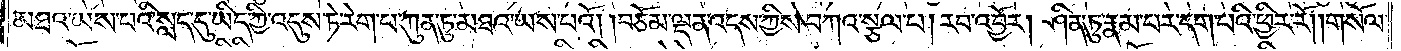མཐའ་ཡས་པའི་སླད་དུ་ཡིད་ཀྱི་འདུས་ཏེ་རེག་པ་ཀུན་ཏུ་མཐའ་ཡས་པའོ། །བཅོམ་ལྡན་འདས་ཀྱིས་བཀའ་སྩལ་པ། རབ་འབྱོར། ཤིན་ཏུ་རྣམ་པར་དག་པའི་ཕྱིར་རོ། །གསོལ་
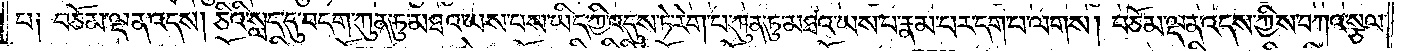པ༑ བཅོམ་ལྡན་འདས། ཅིའི་སླད་དུ་བདག་ཀུན་ཏུ་མཐའ་ཡས་པས་ཡིད་ཀྱི་འདུས་ཏེ་རེག་པ་ཀུན་ཏུ་མཐའ་ཡས་པ་རྣམ་པར་དག་པ་ལགས། བཅོམ་ལྡན་འདས་ཀྱིས་བཀའ་སྩལ་
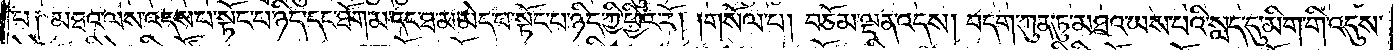པ༑ མཐའ་ལས་འདས་པ་སྟོང་པ་ཉིད་དང་ཐོག་མ་དང་ཐ་མ་མེད་པ་སྟོང་པ་ཉིད་ཀྱི་ཕྱིར་རོ། །གསོལ་པ། བཅོམ་ལྡན་འདས། བདག་ཀུན་ཏུ་མཐའ་ཡས་པའི་སླད་དུ་མིག་གི་འདུས་
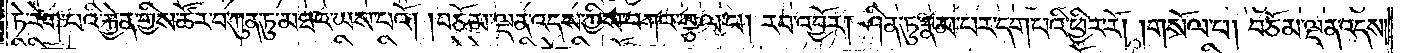ཏེ་རེག་པའི་རྐྱེན་གྱིས་ཚོར་བ་ཀུན་ཏུ་མཐའ་ཡས་པའོ། །བཅོམ་ལྡན་འདས་ཀྱིས་བཀའ་སྩལ་པ། རབ་འབྱོར། ཤིན་ཏུ་རྣམ་པར་དག་པའི་ཕྱིར་རོ། །གསོལ་པ། བཅོམ་ལྡན་འདས།
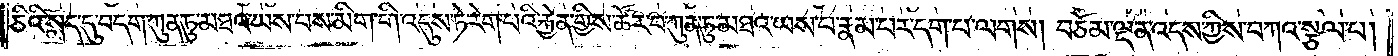ཅིའི་སླད་དུ་བདག་ཀུན་ཏུ་མཐའ་ཡས་པས་མིག་གི་འདུས་ཏེ་རེག་པའི་རྐྱེན་གྱིས་ཚོར་བ་ཀུན་ཏུ་མཐའ་ཡས་པ་རྣམ་པར་དག་པ་ལགས། བཅོམ་ལྡན་འདས་ཀྱིས་བཀའ་སྩལ་པ།
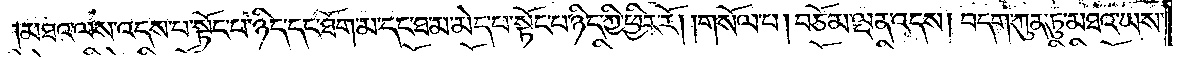མཐའ་ལས་འདས་པ་སྟོང་པ་ཉིད་དང་ཐོག་མ་དང་ཐ་མ་མེད་པ་སྟོང་པ་ཉིད་ཀྱི་ཕྱིར་རོ། །གསོལ་པ། བཅོམ་ལྡན་འདས། བདག་ཀུན་ཏུ་མཐའ་ཡས་
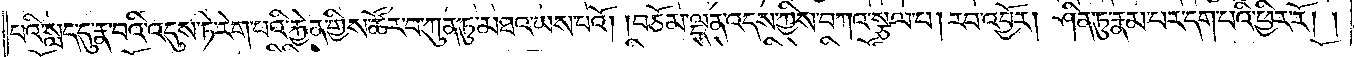པའི་སླད་དུ་རྣ་བའི་འདུས་ཏེ་རེག་པའི་རྐྱེན་གྱིས་ཚོར་བ་ཀུན་ཏུ་མཐའ་ཡས་པའོ། །བཅོམ་ལྡན་འདས་ཀྱིས་བཀའ་སྩལ་པ། རབ་འབྱོར། ཤིན་ཏུ་རྣམ་པར་དག་པའི་ཕྱིར་རོ། །
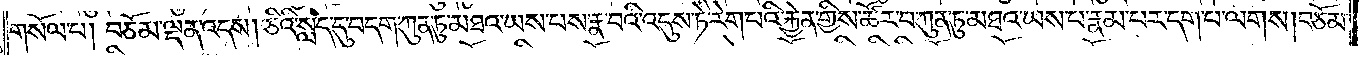གསོལ་པ། བཅོམ་ལྡན་འདས། ཅིའི་སླད་དུ་བདག་ཀུན་ཏུ་མཐའ་ཡས་པ་རྣ་བའི་འདུས་ཏེ་རེག་པའི་རྐྱེན་གྱིས་ཚོར་བ་ཀུན་ཏུ་མཐའ་ཡས་པ་རྣམ་པར་དག་པ་ལགས། བཅོམ་
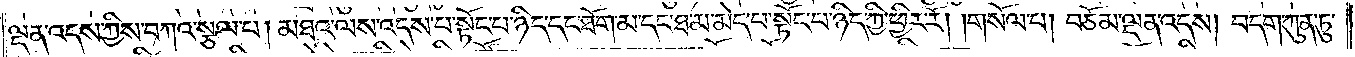ལྡན་འདས་ཀྱིས་བཀའ་སྩལ་པ། མཐའ་ལས་འདས་པ་སྟོང་པ་ཉིད་དང་ཐོག་མ་དང་ཐ་མ་མེད་པ་སྟོང་པ་ཉིད་ཀྱི་ཕྱིར་རོ། །གསོལ་པ། བཅོམ་ལྡན་འདས། བདག་ཀུན་ཏུ་
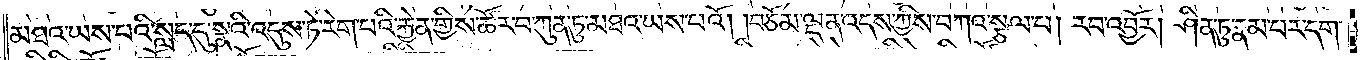མཐའ་ཡས་པའི་སླད་དུ་སྣའི་འདུས་ཏེ་རེག་པའི་རྐྱེན་གྱིས་ཚོར་བ་ཀུན་ཏུ་མཐའ་ཡས་པའོ། །བཅོམ་ལྡན་འདས་ཀྱིས་བཀའ་སྩལ་པ། རབ་འབྱོར། ཤིན་ཏུ་རྣམ་པར་དག་
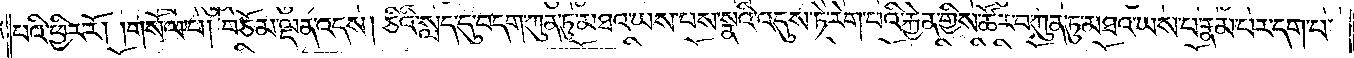པའི་ཕྱིར་རོ། །གསོལ་པ། བཅོམ་ལྡན་འདས། ཅིའི་སླད་དུ་བདག་ཀུན་ཏུ་མཐའ་ཡས་པས་སྣའི་འདུས་ཏེ་རེག་པའི་རྐྱེན་གྱིས་ཚོར་བ་ཀུན་ཏུ་མཐའ་ཡས་པ་རྣམ་པར་དག་པ་
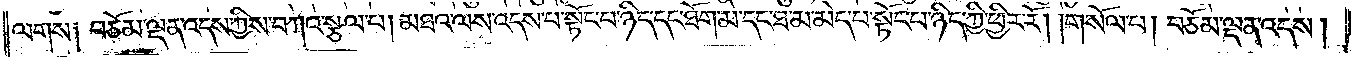ལགས༑ བཅོམ་ལྡན་འདས་ཀྱིས་བཀའ་སྩལ་པ། མཐའ་ལས་འདས་པ་སྟོང་པ་ཉིད་དང་ཐོག་མ་དང་ཐ་མ་མེད་པ་སྟོང་པ་ཉིད་ཀྱི་ཕྱིར་རོ། །གསོལ་པ། བཅོམ་ལྡན་འདས།
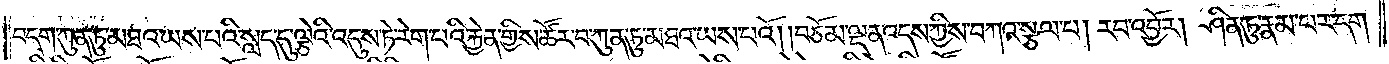བདག་ཀུན་ཏུ་མཐའ་ཡས་པའི་སླད་དུ་ལྕེའི་འདུས་ཏེ་རེག་པའི་རྐྱེན་གྱིས་ཚོར་བ་ཀུན་ཏུ་མཐའ་ཡས་པའོ། །བཅོམ་ལྡན་འདས་ཀྱིས་བཀའ་སྩལ་པ། རབ་འབྱོར། ཤིན་ཏུ་རྣམ་པར་དག་
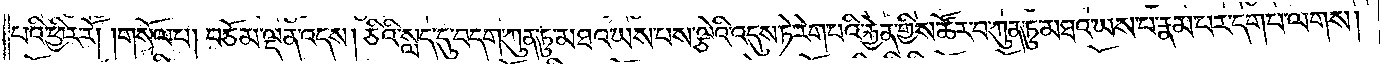པའི་ཕྱིར་རོ། །གསོལ་པ། བཅོམ་ལྡན་འདས། ཅིའི་སླད་དུ་བདག་ཀུན་ཏུ་མཐའ་ཡས་པས་ལྕེའི་འདུས་ཏེ་རེག་པའི་རྐྱེན་གྱིས་ཚོར་བ་ཀུན་ཏུ་མཐའ་ཡས་པ་རྣམ་པར་དག་པ་ལགས།
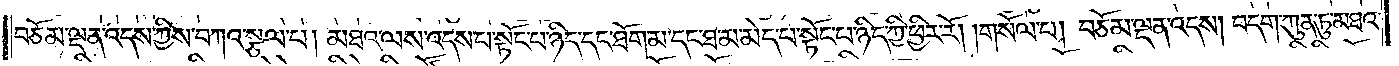བཅོམ་ལྡན་འདས་ཀྱིས་བཀའ་སྩལ་པ། མཐའ་ལས་འདས་པ་སྟོང་པ་ཉིད་དང་ཐོག་མ་དང་ཐ་མ་མེད་པ་སྟོང་པ་ཉིད་ཀྱི་ཕྱིར་རོ། །གསོལ་པ། བཅོམ་ལྡན་འདས། བདག་ཀུན་ཏུ་མཐའ་
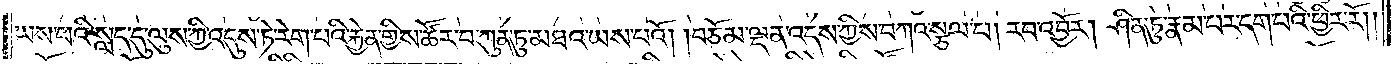ཡས་པའི་སླད་དུ་ལུས་ཀྱི་འདུས་ཏེ་རེག་པའི་རྐྱེན་གྱིས་ཚོར་བ་ཀུན་ཏུ་མཐའ་ཡས་པའོ། །བཅོམ་ལྡན་འདས་ཀྱིས་བཀའ་སྩལ་པ། རབ་འབྱོར། ཤིན་ཏུ་རྣམ་པར་དག་པའི་ཕྱིར་རོ། །
